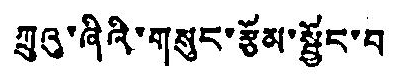ཀྲུའུ་ཞིའི་གསུང་རྩོམ་སྦྱོང་བ
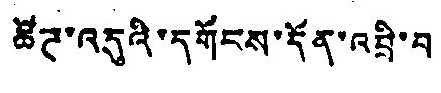ཚོཊ་འདུའི་དགོངས་དོན་འབྲི་བ
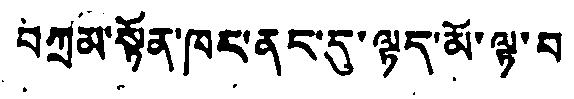བཀྲམ་སྟོན་ཁར་ནང་དུ་ལྟད་མོ་ལྟ་བ
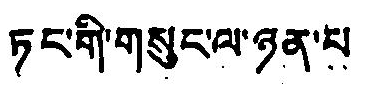ཏང་གི་གསུང་ལ་ཉན་པ
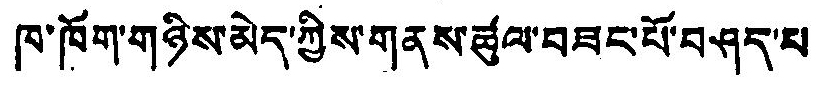ཁ་ཁོག་གཉིས་མེད་ཀྱིས་གནས་ཚུལ་བཟང་པོ་བཤད་པ
